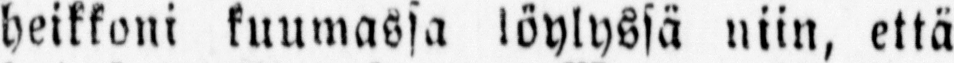heikkoni kuumassa löylyssä niin, että
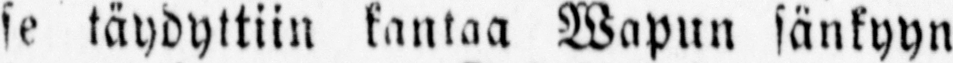te täydyttiin kantaa Wapun sänkyyn
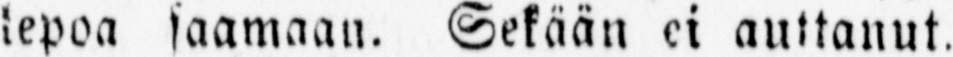lepoa saamaan. Sekään ei auttanut.
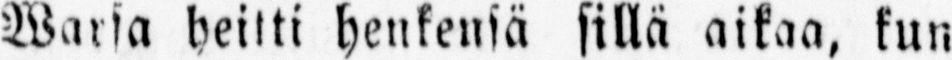Warsa heitti henkensä sillä aikaa, kun
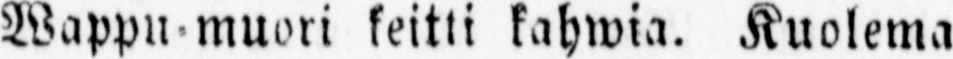Wappu - muori keitti kahwia. Kuolema
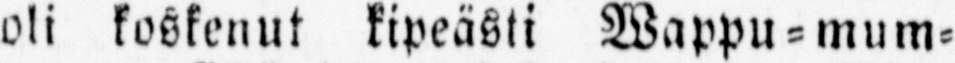oli koskenut kipeästi Wappu-mum-
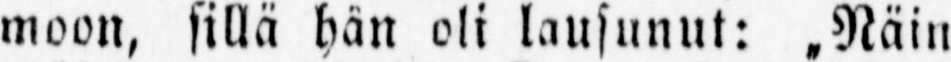moon, sillä hän oli lausunut: „Näin
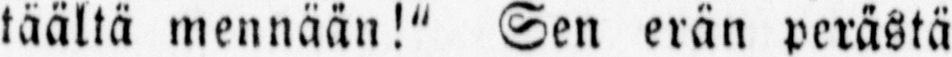täältä mennään!" Sen erän perästä
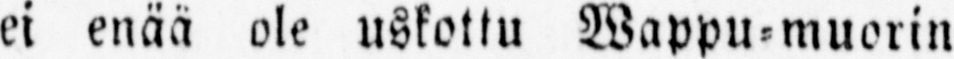ei enää ole uskottu Wappu-muorin
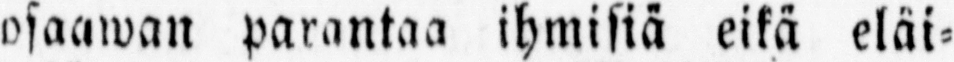osaawan parantaa ihmisiä eikä eläi-
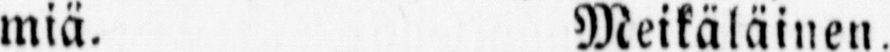miä. Meikäläinen.
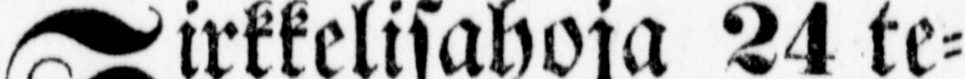Sirkkelisahoja 24 te-
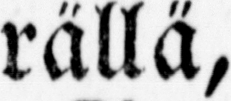rällä,
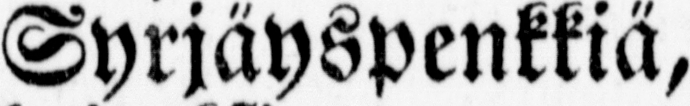Syrjäyspenkkiä,
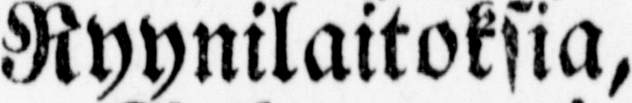Ryynilaitoksia,
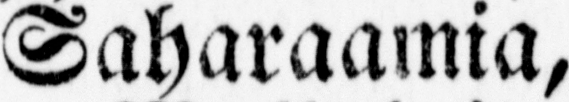Saharaamia,
